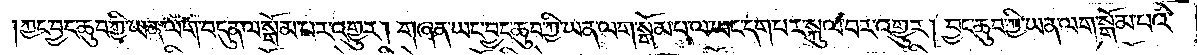ཀྱང་བྱང་ཆུབ་ཀྱི་ཡན་ལག་བདུན་ལ་སྒོམ་པར་འགྱུར། གཞན་ཡང་བྱང་ཆུབ་ཀྱི་ཡན་ལག་སྒོམ་པ་ལ་ཡང་དག་པར་སྐུལ་བར་འགྱུར། བྱང་ཆུབ་ཀྱི་ཡན་ལག་སྒོམ་པའི་
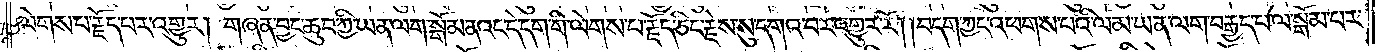ལེགས་པ་རྗོད་པར་འགྱུར། གཞན་བྱང་ཆུབ་ཀྱི་ཡན་ལག་སྒོམ་ནའང་དེ་དག་གི་ལེགས་པ་རྗོད་ཅིང་རྗེས་སུ་དགའ་བར་འགྱུར་རོ། །བདག་ཀྱང་འཕགས་པའི་ལམ་ཡན་ལག་བརྒྱད་པ་ལ་སྒོམ་པར་
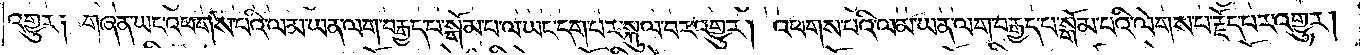འགྱུར། གཞན་ཡང་འཕགས་པའི་ལམ་ཡན་ལག་བརྒྱད་པ་སྒོམ་པ་ལ་ཡང་དག་པར་སྐུལ་བར་འགྱུར། འཕགས་པའི་ལམ་ཡན་ལག་བརྒྱད་པ་སྒོམ་པའི་ལེགས་པ་རྗོད་པར་འགྱུར།
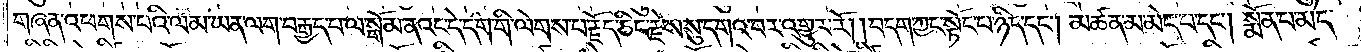གཞན་འཕགས་པའི་ལམ་ཡན་ལག་བརྒྱད་པ་ལ་སྒོམ་ནའང་དེ་དག་གི་ལེགས་པ་རྗོད་ཅིང་རྗེས་སུ་དགའ་བར་འགྱུར་རོ། །བདག་ཀྱང་སྟོང་པ་ཉིད་དང༌། མཚན་མ་མེད་པ་དང༌། སྨོན་པ་མེད་
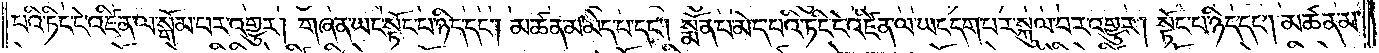པའི་ཏིང་ངེ་འཛིན་ལ་སྒོམ་པར་འགྱུར། གཞན་ཡང་སྟོང་པ་ཉིད་དང༌། མཚན་མ་མེད་པ་དང༌། སྨོན་པ་མེད་པའི་ཏིང་ངེ་འཛིན་ལ་ཡང་དག་པར་སྐུལ་བར་འགྱུར། སྟོང་པ་ཉིད་དང༌། མཚན་མ་
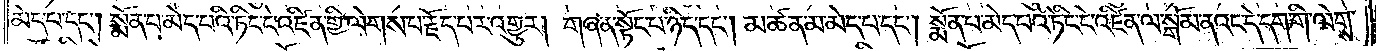མེད་པ་དང༌། སྨོན་པ་མེད་པའི་ཏིང་ངེ་འཛིན་གྱི་ལེགས་པ་རྗོད་པར་འགྱུར། གཞན་སྟོང་པ་ཉིད་དང༌། མཚན་མ་མེད་པ་དང༌། སྨོན་པ་མེད་པའི་ཏིང་ངེ་འཛིན་ལ་སྒོམ་ནའང་དེ་དག་གི་ལེགས་
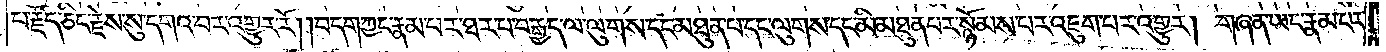པ་རྗོད་ཅིང་རྗེས་སུ་དགའ་བར་འགྱུར་རོ། །བདག་ཀྱང་རྣམ་པར་ཐར་པ་བརྒྱད་ལ་ལུགས་དང་མཐུན་པ་དང་ལུགས་དང་མི་མཐུན་པར་སྙོམས་པར་འཇུག་པར་འགྱུར། གཞན་ཡང་རྣམ་པར་
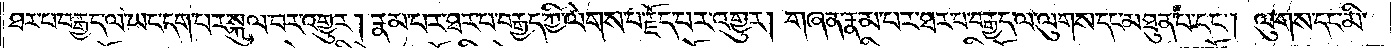ཐར་པ་བརྒྱད་ལ་ཡང་དག་པར་སྐུལ་བར་འགྱུར། རྣམ་པར་ཐར་པ་བརྒྱད་ཀྱི་ལེགས་པ་རྗོད་པར་འགྱུར། གཞན་རྣམ་པར་ཐར་པ་བརྒྱད་ལ་ལུགས་དང་མཐུན་པ་དང༌། ལུགས་དང་མི་
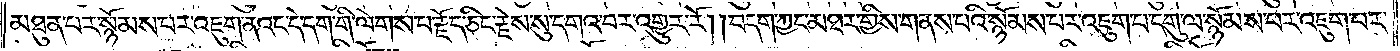མཐུན་པར་སྙོམས་པར་འཇུག་ནའང་དེ་དག་གི་ལེགས་པ་རྗོད་ཅིང་རྗེས་སུ་དགའ་བར་འགྱུར་རོ། །བདག་ཀྱང་མཐར་གྱིས་གནས་པའི་སྙོམས་པར་འཇུག་པ་དགུ་ལ་སྙོམས་པར་འཇུག་པར་
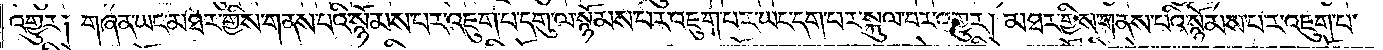འགྱུར། གཞན་ཡང་མཐར་གྱིས་གནས་པའི་སྙོམས་པར་འཇུག་པ་དགུ་ལ་སྙོམས་པར་འཇུག་པར་ཡང་དག་པར་སྐུལ་བར་འགྱུར། མཐར་གྱིས་གནས་པའི་སྙོམས་པར་འཇུག་པ་
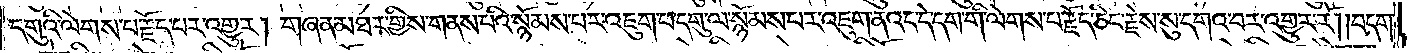དགུའི་ལེགས་པ་རྗོད་པར་འགྱུར། གཞན་མཐར་གྱིས་གནས་པའི་སྙོམས་པར་འཇུག་པ་དགུ་ལ་སྙོམས་པར་འཇུག་ནའང་དེ་དག་གི་ལེགས་པ་རྗོད་ཅིང་རྗེས་སུ་དགའ་བར་འགྱུར་རོ། །བདག་
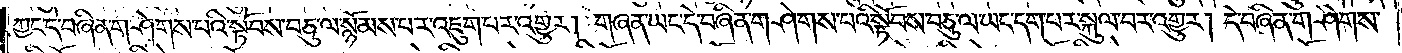ཀྱང་དེ་བཞིན་གཤེགས་པའི་སྟོབས་བཅུ་ལ་སྙོམས་པར་འཇུག་པར་འགྱུར། གཞན་ཡང་དེ་བཞིན་གཤེགས་པའི་སྟོབས་བཅུ་ལ་ཡང་དག་པར་སྐུལ་བར་འགྱུར། དེ་བཞིན་གཤེགས་
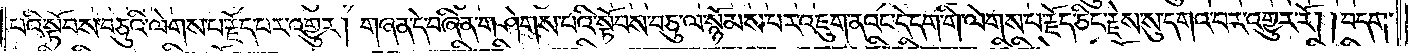པའི་སྟོབས་བཅུའི་ལེགས་པ་རྗོད་པར་འགྱུར། གཞན་དེ་བཞིན་གཤེགས་པའི་སྟོབས་བཅུ་ལ་སྙོམས་པར་འཇུག་ནའང་དེ་དག་གི་ལེགས་པ་རྗོད་ཅིང་རྗེས་སུ་དགའ་བར་འགྱུར་རོ། །བདག་
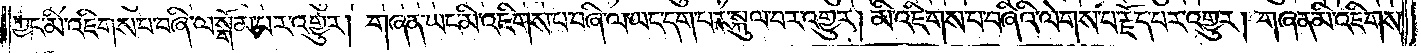ཀྱང་མི་འཇིགས་པ་བཞི་ལ་སྒོམ་པར་འགྱུར། གཞན་ཡང་མི་འཇིགས་པ་བཞི་ལ་ཡང་དག་པར་སྐུལ་བར་འགྱུར། མི་འཇིགས་པ་བཞིའི་ལེགས་པ་རྗོད་པར་འགྱུར། གཞན་མི་འཇིགས་
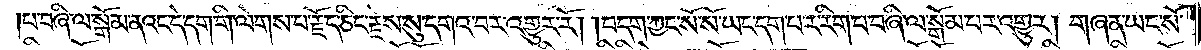པ་བཞི་ལ་སྒོམ་ནའང་དེ་དག་གི་ལེགས་པ་རྗོད་ཅིང་རྗེས་སུ་དགའ་བར་འགྱུར་རོ། །བདག་ཀྱང་སོ་སོ་ཡང་དག་པར་རིག་པ་བཞི་ལ་སྒོམ་པར་འགྱུར། གཞན་ཡང་སོ་
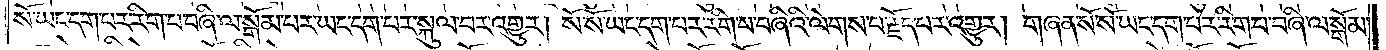སོ་ཡང་དག་པར་རིག་པ་བཞི་ལ་སྒོམ་པར་ཡང་དག་པར་སྤྲུལ་བར་འགྱུར། སོ་སོ་ཡང་དག་པར་རིག་པ་བཞིའི་ལེགས་པ་རྗོད་པར་འགྱུར། གཞན་སོ་སོ་ཡང་དག་པར་རིག་པ་བཞི་ལ་སྒོམ་
